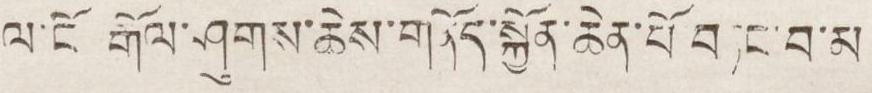ལ་ངོ རྒོལ་ཤུགས་ཆེས་གནོད་སྐྱོན་ཆེན་པོ་བཏང་བ་མ
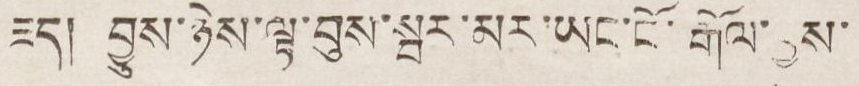ཟད། བྱུས་ཉེས་ལྟ་བུས་སྦར་མར་ཡང་ངོ་རྒོལ་བྱས་
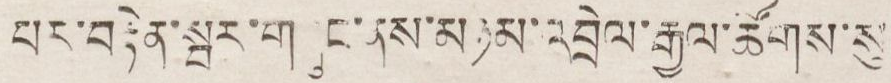པར་བརྟེན་སྦར་གཞུང་ནས་མཉམ་འབྲེལ་རྒྱལ་ཚོགས་སུ
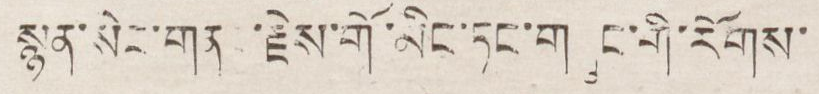སྙན་སེང་གནང་རྗེས་གོ་མིང་ཏང་གཞུང་གི་རོགས་
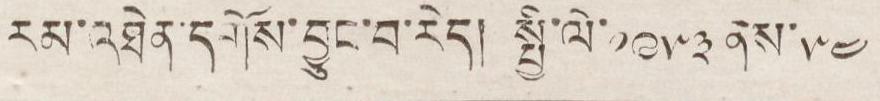རམ་འཐེན་དགོས་བྱུང་བ་རེད། སྤྱི་ལོ་ ༡༩༥༣ ནས་༥༤
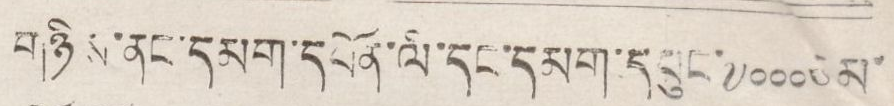གཉིས་ནང་དམག་དཔོན་ལི་དང་དམག་དཔུང་ ༧༠༠༠ ཙམ་
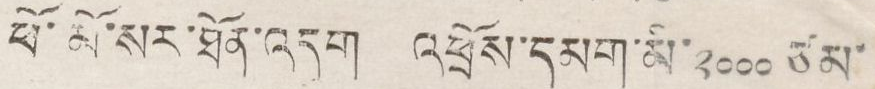ཕོ་མོ་སར་ཐོན་འདུག འཕྲོས་དམག་མི་ ༢༠༠༠ ཙམ་
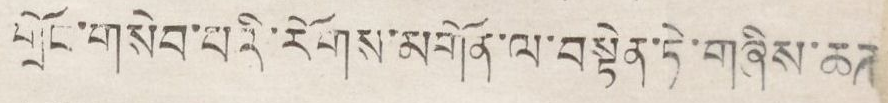གྲོང་གསེབ་པའི་རོགས་མགོན་ལ་བསྟེན་ཏེ་གཞིས་ཆཊ
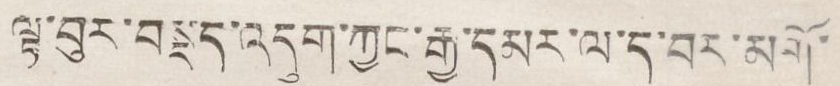ལྟ་བུར་བསྡད་འདུག་ཀྱང་རྒྱ་དམར་ལ་ད་བར་མགོ་
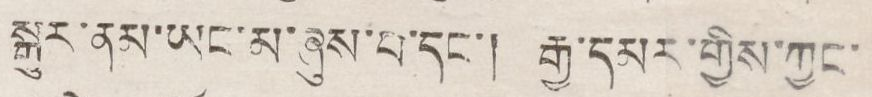སྐུར་ནམ་ཡང་མ་ཞུས་པ་དང་། རྒྱ་དམར་གྱིས་ཀྱང་
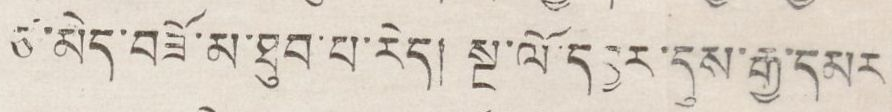ཙ་མེད་བཟོ་མ་ཐུབ་པ་རེད། སྔ་ལོ་དབྱར་དུས་རྒྱ་དམར
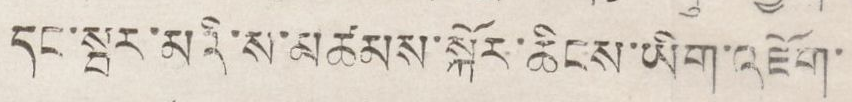དང་སྦར་མའི་ས་མཚམས་སྐོར་ཆིངས་ཡིག་འཇོག་
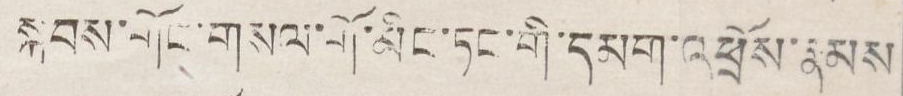སྐབས་གོང་གསལ་གོ་མིང་ཏང་གི་དམག་འཕྲོས་རྣམས་
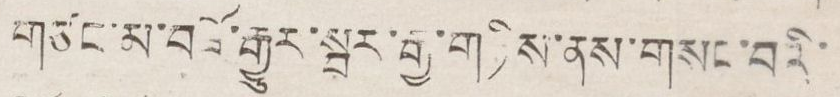གཙང་མ་བཟོ་རྒྱུར་སྦར་རྒྱ་གཉིས་ནས་གསང་བའི་
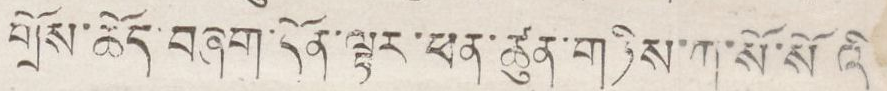གྲོས་ཆོད་བཞག་དོན་ལྟར་ཕན་ཚུན་གཉིས་ཀ་སོ་སོའི
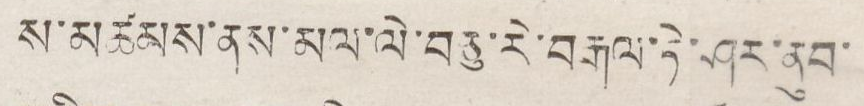ས་མཚམས་ནས་མལ་ལེ་བཅུ་རེ་བརྒལ་ཏེ་ཤར་ནུབ་
